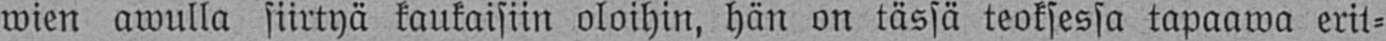wien awulla siirtyä kaukaisiin oloihin, hän on tässä teoksessa tapaawa erit-
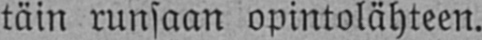täin runsaan opintolähteen.
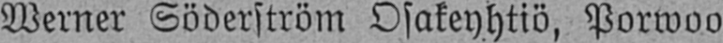Werner Söderström Osakeyhtiö, Porwoo.
